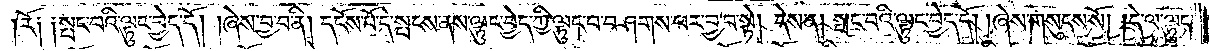རོ༑ ༑སྤང་བའི་ལྟུང་བྱེད་དོ། །ཞེས་བྱ་བ་ནི། དངོས་པོ་དེ་སྤངས་ནས་ལྟུང་བྱེད་ཀྱི་ལྟུང་བ་བཤགས་པར་བྱ་བ་སྟེ། དེས་ན། སྤང་བའི་ལྟུང་བྱེད་དོ། །ཞེས་གསུངས་སོ། །དེ་ལ་ལྟུང་
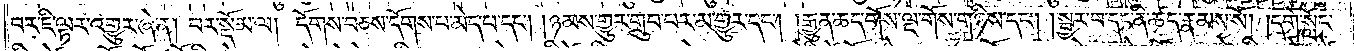བར་ཇི་ལྟར་འགྱུར་ཞེ་ན། བར་སྡོམ་ལ། དོགས་བཅས་དོགས་པ་མེད་པ་དང༌། །ཉམས་གྱུར་གྲུབ་པར་མ་གྱུར་དང༌། །རྒྱུན་ཆད་གོས་ལྔ་གོས་གཉིས་དང༌། །སྦྱར་བ་དང་ནི་ཚད་རྣམས་སོ། །དགེ་སློང་
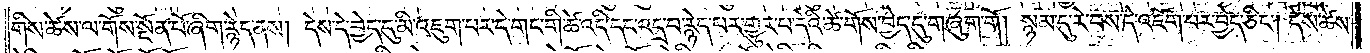གིས་ཚེས་ལ་གོས་སྔོན་པོ་ཞིག་རྙེད་ནས། དེས་དེ་བྱེད་དུ་མི་འཇུག་པར་དེ་གང་གི་ཚེ་འདི་དང་འདྲ་བ་རྙེད་པར་གྱུར་པ་དེའི་ཚེ་གོས་བྱེད་དུ་གཞུག་གོ། སྙམ་དུ་རེ་བས་དེ་འཇོག་པར་བྱེད་ཅིང༌། དེས་ཚེས་
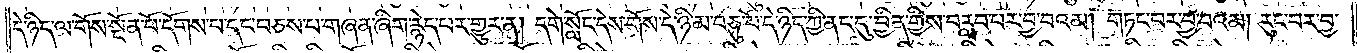དེ་ཉིད་ལ་གོས་སྔོན་པོ་དོགས་པ་དང་བཅས་པ་གཞན་ཞིག་རྙེད་པར་གྱུར་ན། དགེ་སློང་དེས་གོས་དེ་ཉི་མ་བཅུ་པོ་དེ་ཉིད་ཀྱི་ནང་དུ་བྱིན་གྱིས་བརླབ་པར་བྱ་བའམ། གཏང་བར་བྱ་བའམ། རུང་བར་བྱ་
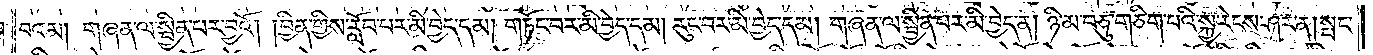བའམ། གཞན་ལ་སྦྱིན་པར་བྱའོ། །བྱིན་གྱིས་རློབ་པར་མི་བྱེད་དམ། གཏོང་བར་མི་བྱེད་དམ། རུང་བར་མི་བྱེད་དམ། གཞན་ལ་སྦྱིན་པར་མི་བྱེད་ན། ཉི་མ་བཅུ་གཅིག་པའི་སྐྱ་རེངས་ཤར་ན། སྤང་
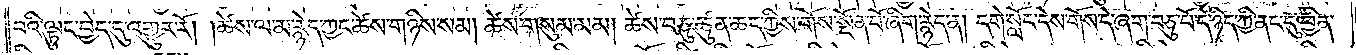བའི་ལྟུང་བྱེད་དུ་འགྱུར་རོ། །ཚེས་ལ་མ་རྙེད་ཀྱང་ཚེས་གཉིས་སམ། ཚེས་གསུམ་མམ། ཚེས་བཅུ་ཚུན་ཆད་ཀྱིས་གོས་སྔོན་པོ་ཞིག་རྙེད་ན། དགེ་སློང་དེས་གོས་དེ་ཞག་བཅུ་པོ་དེ་ཉིད་ཀྱི་ནང་དུ་བྱིན་
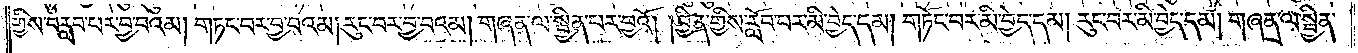གྱིས་བརླབ་པར་བྱ་བའམ། གཏང་བར་བྱ་བའམ། རུང་བར་བྱ་བའམ། གཞན་ལ་སྦྱིན་པར་བྱའོ། །བྱིན་གྱིས་རློབ་པར་མི་བྱེད་དམ། གཏོང་བར་མི་བྱེད་དམ། རུང་བར་མི་བྱེད་དམ། གཞན་ལ་སྦྱིན་
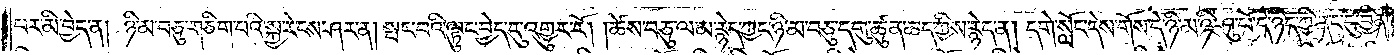པར་མི་བྱེད་ན། ཉི་མ་བཅུ་གཅིག་པའི་སྐྱ་རེངས་ཤར་ན། སྤང་བའི་ལྟུང་བྱེད་དུ་འགྱུར་རོ། །ཚེས་བཅུ་ལ་མ་རྙེད་ཀྱང་ཉི་མ་བཅུ་དགུ་ཚུན་ཆད་ཀྱིས་རྙེད་ན། དགེ་སློང་དེས་གོས་དེ་ཉི་མ་ཉི་ཤུ་པོ་དེ་ཉིད་ཀྱི་ནང་དུ་བྱིན་
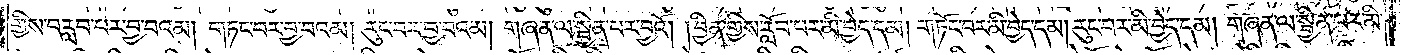གྱིས་བརླབ་པར་བྱ་བའམ། གཏང་བར་བྱ་བའམ། རུང་བར་བྱ་བའམ། གཞན་ལ་སྦྱིན་པར་བྱའོ། །བྱིན་གྱིས་རློབ་པར་མི་བྱེད་དམ། གཏོང་བར་མི་བྱེད་དམ། རུང་བར་མི་བྱེད་དམ། གཞན་ལ་སྦྱིན་པར་མི་
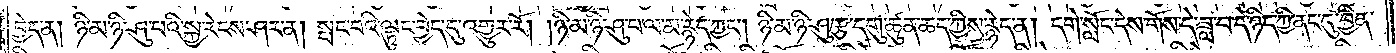བྱེད་ན། ཉི་མ་ཉི་ཤུ་བའི་སྐྱ་རེངས་ཤར་ན། སྤང་པའི་ལྟུང་བྱེད་དུ་འགྱུར་རོ། །ཉི་མ་ཉི་ཤུ་པ་ལ་མ་རྙེད་ཀྱང༌། ཉི་མ་ཉི་ཤུ་རྩ་དགུ་ཚུན་ཆད་ཀྱིས་རྙེད་ན། དགེ་སློང་དེས་གོས་དེ་ཟླ་བ་དེ་ཉིད་ཀྱི་ནང་དུ་བྱིན་
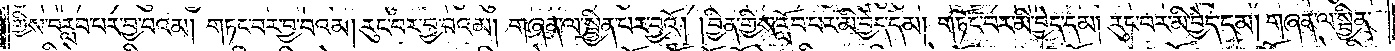གྱིས་བརླབ་པར་བྱ་བའམ། གཏང་བར་བྱ་བའམ། རུང་བར་བྱ་བའམ། གཞན་ལ་སྦྱིན་པར་བྱའོ། །བྱིན་གྱིས་རློབ་པར་མི་བྱེད་དམ། གཏོང་བར་མི་བྱེད་དམ། རུང་བར་མི་བྱེད་དམ། གཞན་ལ་སྦྱིན་
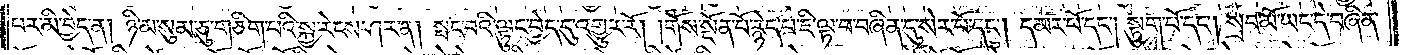པར་མི་བྱེད་ན། ཉི་མ་སུམ་ཅུ་གཅིག་པའི་སྐྱ་རེངས་ཤར་ན། སྤང་བའི་ལྟུང་བྱེད་དུ་འགྱུར་རོ། །གོས་སྔོན་པོ་རྙེད་པ་ཇི་ལྟ་བ་བཞིན་དུ་སེར་པོ་དང༌། དམར་པོ་དང༌། སྟུག་པོ་དང༌། སྲབ་མོ་ཡང་དེ་བཞིན་
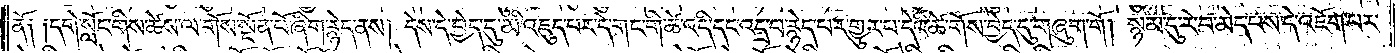ནོ༑ ༑དགེ་སློང་གིས་ཚེས་ལ་གོས་སྔོན་པོ་ཞིག་རྙེད་ནས། དེས་དེ་བྱེད་དུ་མི་འཇུད་པར་དེ་གང་གི་ཚེ་འདི་དང་འདྲ་བ་རྙེད་པར་གྱུར་བ་དེའི་ཚེ་གོས་བྱེད་དུ་གཞུག་གོ། སྙམ་དུ་རེ་བ་མེད་པས་དེ་འཇོག་པར་
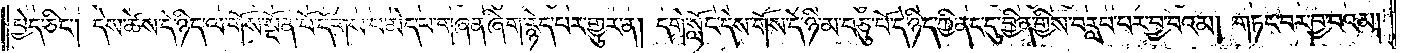བྱེད་ཅིང༌། དེས་ཚེས་དེ་ཉིད་ལ་གོས་སྔོན་པོ་དོགས་པ་མེད་པ་གཞན་ཞིག་རྙེད་པར་གྱུར་ན། དགེ་སློང་དེས་གོས་དེ་ཉི་མ་བཅུ་པོ་དེ་ཉིད་ཀྱི་ནང་དུ་བྱིན་གྱིས་བརླབ་པར་བྱ་བའམ། གཏང་བར་བྱ་བའམ།
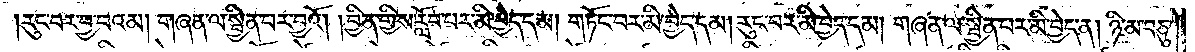རུང་བར་བྱ་བའམ། གཞན་ལ་སྦྱིན་པར་བྱའོ། །བྱིན་གྱིས་རློབ་པར་མི་བྱེད་དམ། གཏོང་བར་མི་བྱེད་དམ། རུང་བར་མི་བྱེད་དམ། གཞན་ལ་སྦྱིན་པར་མི་བྱེད་ན། ཉི་མ་བཅུ་
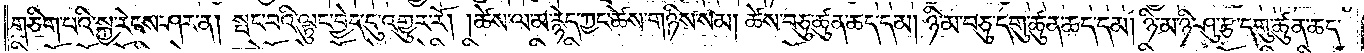གཅིག་པའི་སྐྱ་རེངས་ཤར་ན། སྤང་པའི་ལྟུང་བྱེད་དུ་འགྱུར་རོ། །ཚེས་ལ་མ་རྙེད་ཀྱང་ཚེས་གཉིས་སམ། ཚེས་བཅུ་ཚུན་ཆད་དམ། ཉི་མ་བཅུ་དགུ་ཚུན་ཆད་དམ། ཉི་མ་ཉི་ཤུ་རྩ་དགུ་ཚུན་ཆད་
